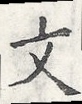文
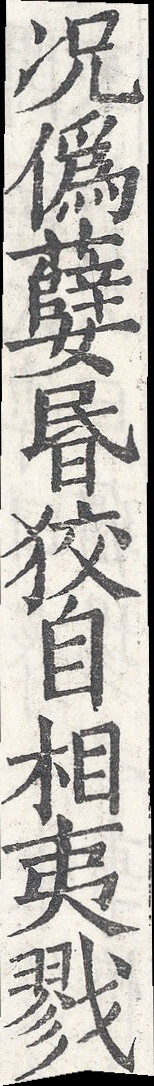況偽㜸昏狡自相夷戮
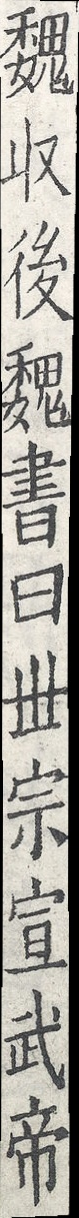魏收後魏書曰世宗宣武帝
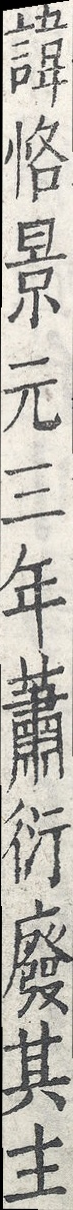諱恪景元三年蕭衍廢其主
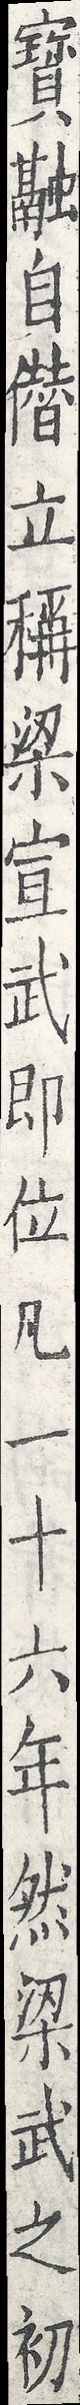寶融自僭立稱梁宣武即位凡一十六年然梁武之初
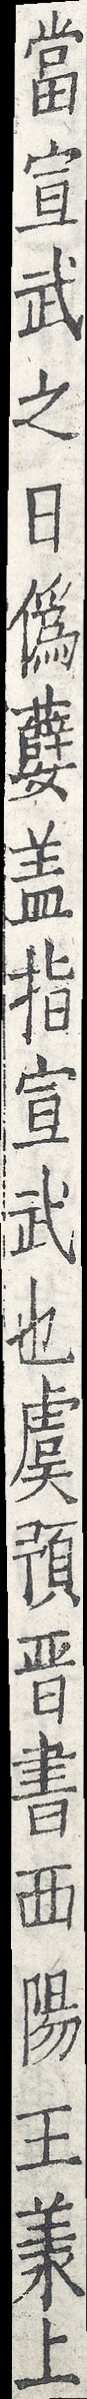當宣武之日偽㜸蓋指宣武也虞預晉書西陽王羕上
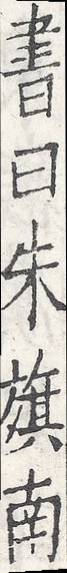書曰朱旗南
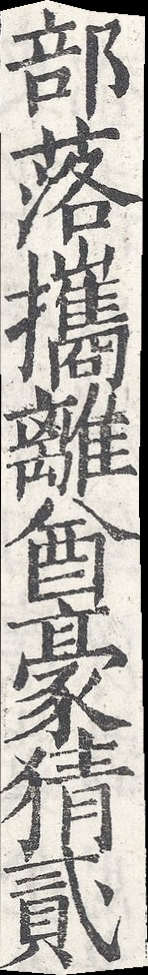部落攜離酋豪猜貳
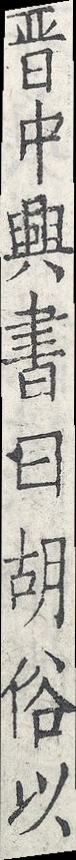晉中興書曰胡俗以
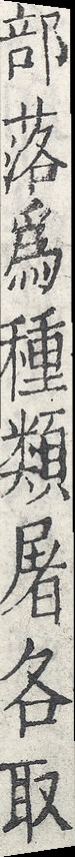部落為種類屠各取
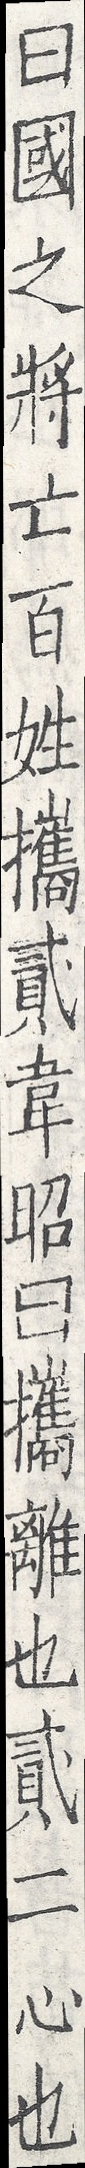曰國之將亡百姓攜貳韋昭曰攜離也貳二心也
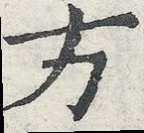方
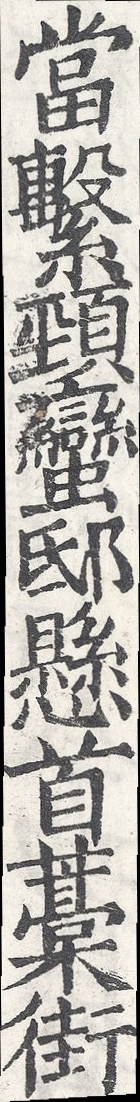當繫頸蠻邸懸首藁街
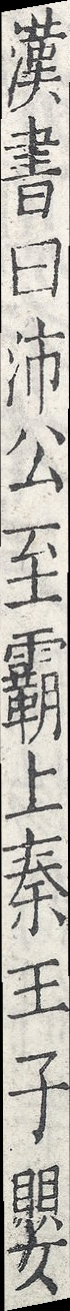漢書曰沛公至霸上秦王子嬰
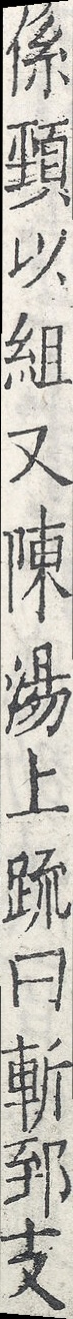係頸以組又陳湯上疏曰斬郅支
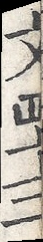文四十三
